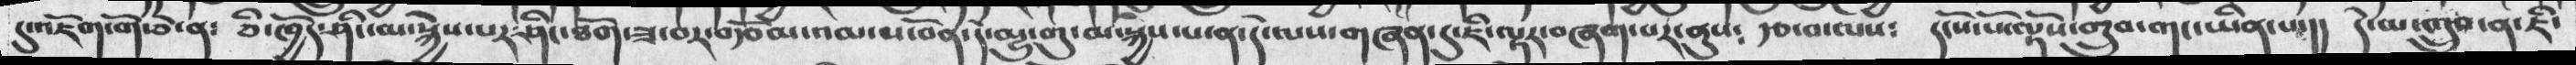དུ་འཇོག་གོ་ཅེ་ན༴ ཅི་ཁྱོད་ཤིང་མ་སྐྱེས་པར་ཤིང་ཐོག་ཟ་བར་བརྩོམ་འམ་ས་བོན་དེ་མྱུ་གུ་མ་སྐྱེས་པ་ན་དེ་ལས་གཞན་དུ་ཇི་ལྟར་བཞག་པར་ནུས༴ རྩ་བ་ལས༴ དངོས་པོ་ལྟོས་གྲུབ་གང་ཡིན་པ་།། དེ་མ་གྲུབ་ན་ཇི་
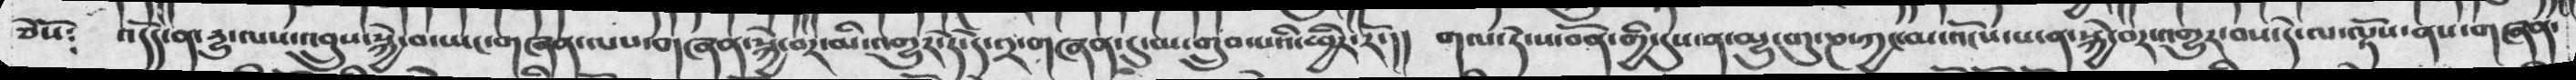ཅེསོ༴ འདོད་ན་དྱུ་ལས་འབྲུས་སྐྱེ་བ་ཡང་གཞན་ལས་གཞན་སྐྱེ་བར་མི་འགྱུར་ཏེ་དེ་༢་གཞན་དུ་མ་གྲུབ་པའི་ཕྱིར་རོ་།། གལ་ཏེ་ས་བོན་གྱིས་དུས་ན་མྱུ་གུ་ཎ་ཀྱང་མ་འོངས་པ་ན་སྐྱེ་བར་འགྱུར་བས་དེ་ལ་ལྟོས་ནས་གཞན་
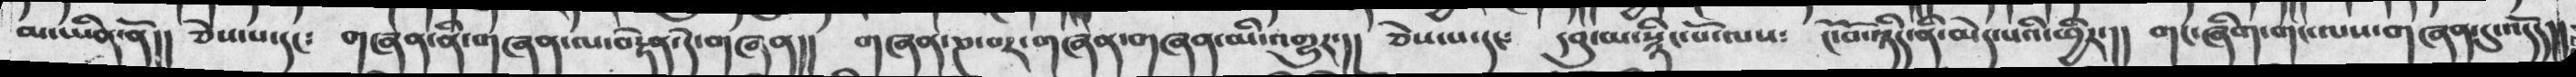མ་ཡིན་ནོ།། ཅེས་པ་དང༴ གཞན་ནི་གཞན་ལ་བརྟེན་དེ་གཞན།། གཞན་ཎ་བར་གཞན་གཞན་མི་འགྱུར་།། ཅེས་པ་དང༴ དབུ་མ་སྙིང་པོ་ལས༴ ངོ་བོ་ཉིད་ནི་མེད་པའི་ཕྱིར་།། གང་ཞིག་གང་ལས་གཞན་དུ་འདོད།།
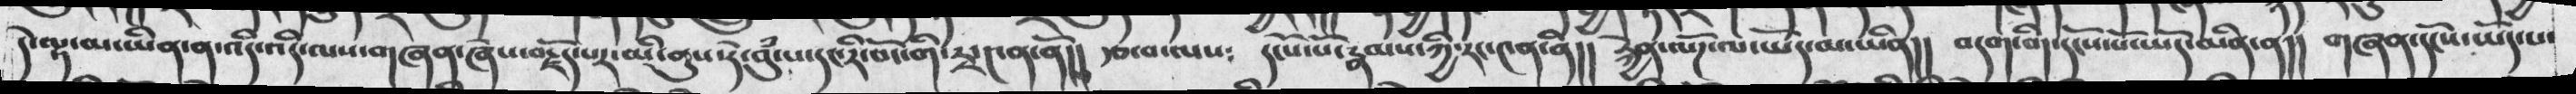དེ་ལྟ་མ་ཡིན་ན་འདི་འདི་ལས་གཞན་ཞེས་་བརྗོད་པར་མི་ནུས་ཏེ་བུཾ་པ་དང་རི་བོང་གི་རྭ་༤ན་ནོ།།  རྩ་བ་ལས༴   དངོས་པོ་རྣམས་ཀྱི་རང་༤ན་ནི།། རྐྱེན་ལོཌ་ལ་ཡོད་མ་ཡིན།།  བདག་གི་དངོས་པོ་ཡོད་མིན་ན།།  གཞན་དངོས་ཡོད་པ་
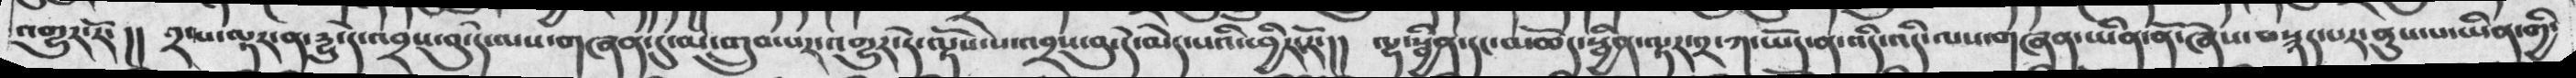འགྱུར་རོ་།། ༢་པ་ལྟར་ན་དྱུ་དེ་འབྲས་བུ་དེ་ལས་གཞན་དུ་མ་གྲུབ་པར་འགྱུར་ཏེ་ལྟོས་པ་འབྲས་བུ་དེ་མམེད་པའི་ཕྱིར་རོ་།། ལྷ་སྦྱིན་དང་མཆོད་སྦྱིན་ལྟར་༢་ཀ་ཡོད་ན་འདི་འདི་ལས་གཞན་ཡིན་ནོ་ཞེས་བསྙད་པར་ནུས་པ་ཡིན་གྱི་
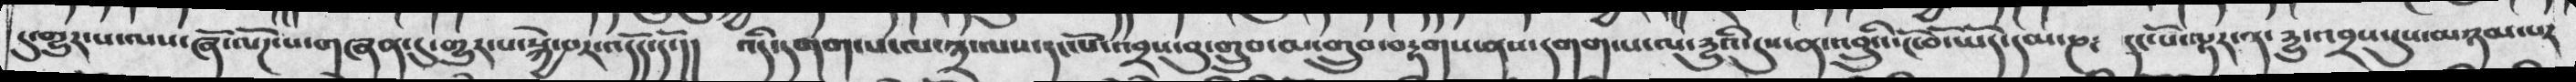དུ་གྱུར་པ་ལས་ཞོ་ལོཌ་པ་གཞན་དུ་གྱུར་པ་སྐྱེ་བར་འདོད་དོ་།། འདི་དགག་པ་ལ་༣་ལས་དང་པོ་འབྲས་བུ་གྲུབ་བརྟགས་ནས་དགག་པ་ལ་དྱུའི་དུས་ན་འབྲུའི་ངོ་བོ་ཡོད་དམ་ཎ༴ དང་པོ་ལྟར་ན་དྱུ་འབྲས་དུས་མཉམ་པར
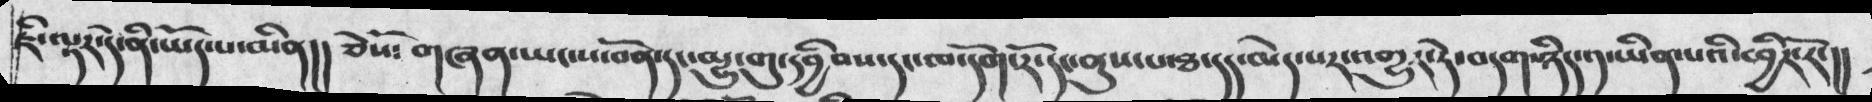ཇི་ལྟར་དེ་ནི་ཡོད་པ་མིན།། ཅེསོ༴ གཞན་ཡང་ས་བོན་དང་མྱུ་གུ་དབྱིབས་དང་ཁ་དོག་རོ་དང་ནུས་པ་ཐ་དད་མེད་པར་འགྱུར་ཏེ་བདག་ཉིད་༡་ཡིན་པའི་ཕྱིར་རོ་།།
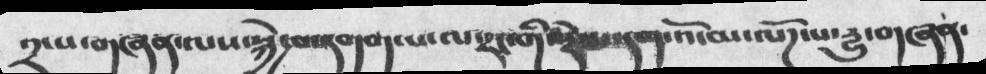༢་པ་གཞན་ལས་སྐྱེ་བ་དགག་པ་ལ་རང་གི་རྗེས་དག་འོ་མ་ལོཌ་པ་དྱུ་གཞན་
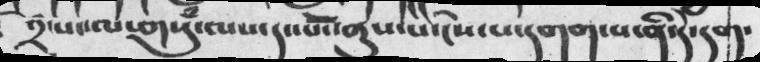༢་པ་ལ་གསུཾ་ལས་དང་པོ་ནུས་པ་ངེས་པ་དགག་པ་ནི་དེ་དག་
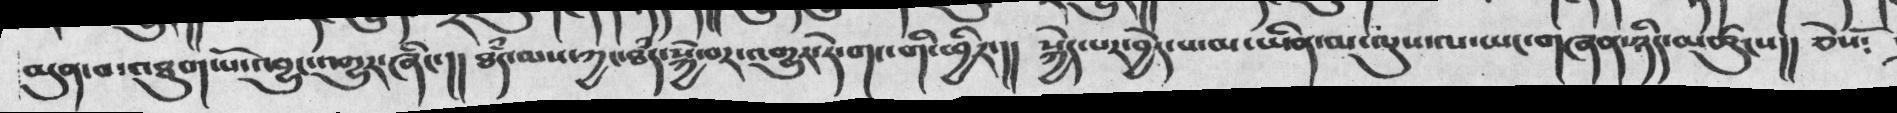མུན་བ་འཐུག་པོ་འབྱུང་འགྱུར་ཞིང་།།   ཐཾད་ལས་ཀྱང་ཐཾད་སྐྱེ་བར་འགྱུར་ཏེ་གང་གི་ཕྱིར་།།   སྐྱེད་པར་བྱེད་པ་མ་ཡིན་མ་ལུས་ལ་ཡང་གཞན་ཉིད་མཚུངས།།  ཅེསོ༴
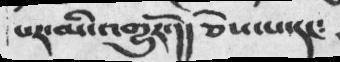པར་མི་འགྱུརོ་།།   ཅེས་པ་དང༴
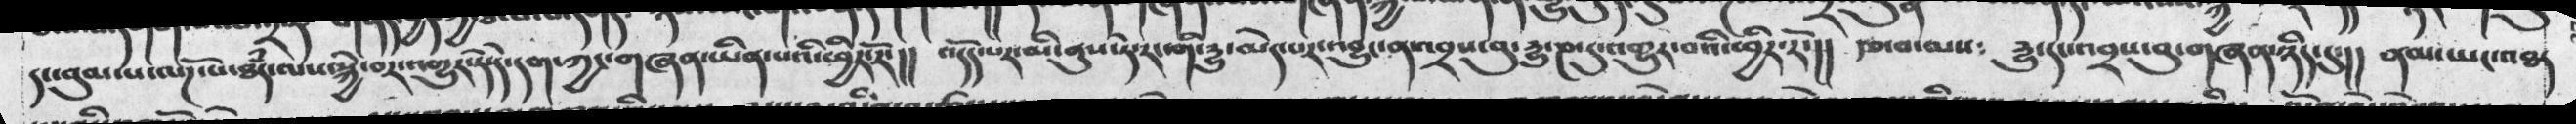དང་བུམ་པ་ལོཌ་པ་ཐཾད་ལས་སྐྱེ་བར་འགྱུར་ཏེ་དེ་དག་ཀྱང་གཞན་ཡིན་པའི་ཕྱིར་རོ་།།  འདོད་པར་མི་ནུས་ཏེ་རང་གི་དྱུ་མེད་པར་འབྱུང་ན་འབྲས་བུ་དྱུ་ཎ་དུ་འགྱུར་བའི་ཕྱིར་རོ་།།  རྩ་བ་ལས༴  དྱུ་དང་འབྲས་བུ་གཞན་ཉིད་དུ་།།  ནམ་ཡང་འཐད
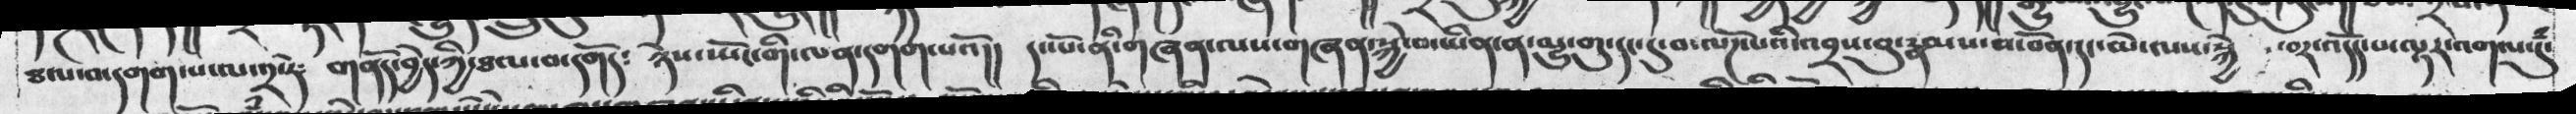ཐལ་བ་དགག་པ་ལ་༢་ཏེ༴  གནོད་བྱེད་ཀྱི་ཐལ་བ་དགོད༴  ཉེས་སྤོང་གི་ལན་དགག་པའོ།།  དང་པོ་ནི་གཞན་ལས་གཞན་སྐྱེ་བ་ཡིན་ན་མྱུ་གུ་དང་དུ་བ་ལོཌ་པའི་འབྲས་བུ་རྣམས་ས་བོན་དང་མེ་ལས་སྐྱེ   བར་འདོད་པ་ལྟར་འགལ་དུཾ་
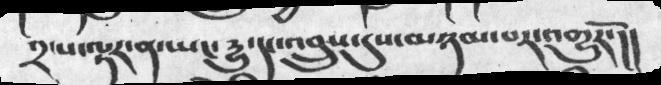༢་པ་ལྟར་ན་ཡང་དྱུ་དང་འབྲུས་དུས་མཉམ་པར་འགྱུརོ་།།
